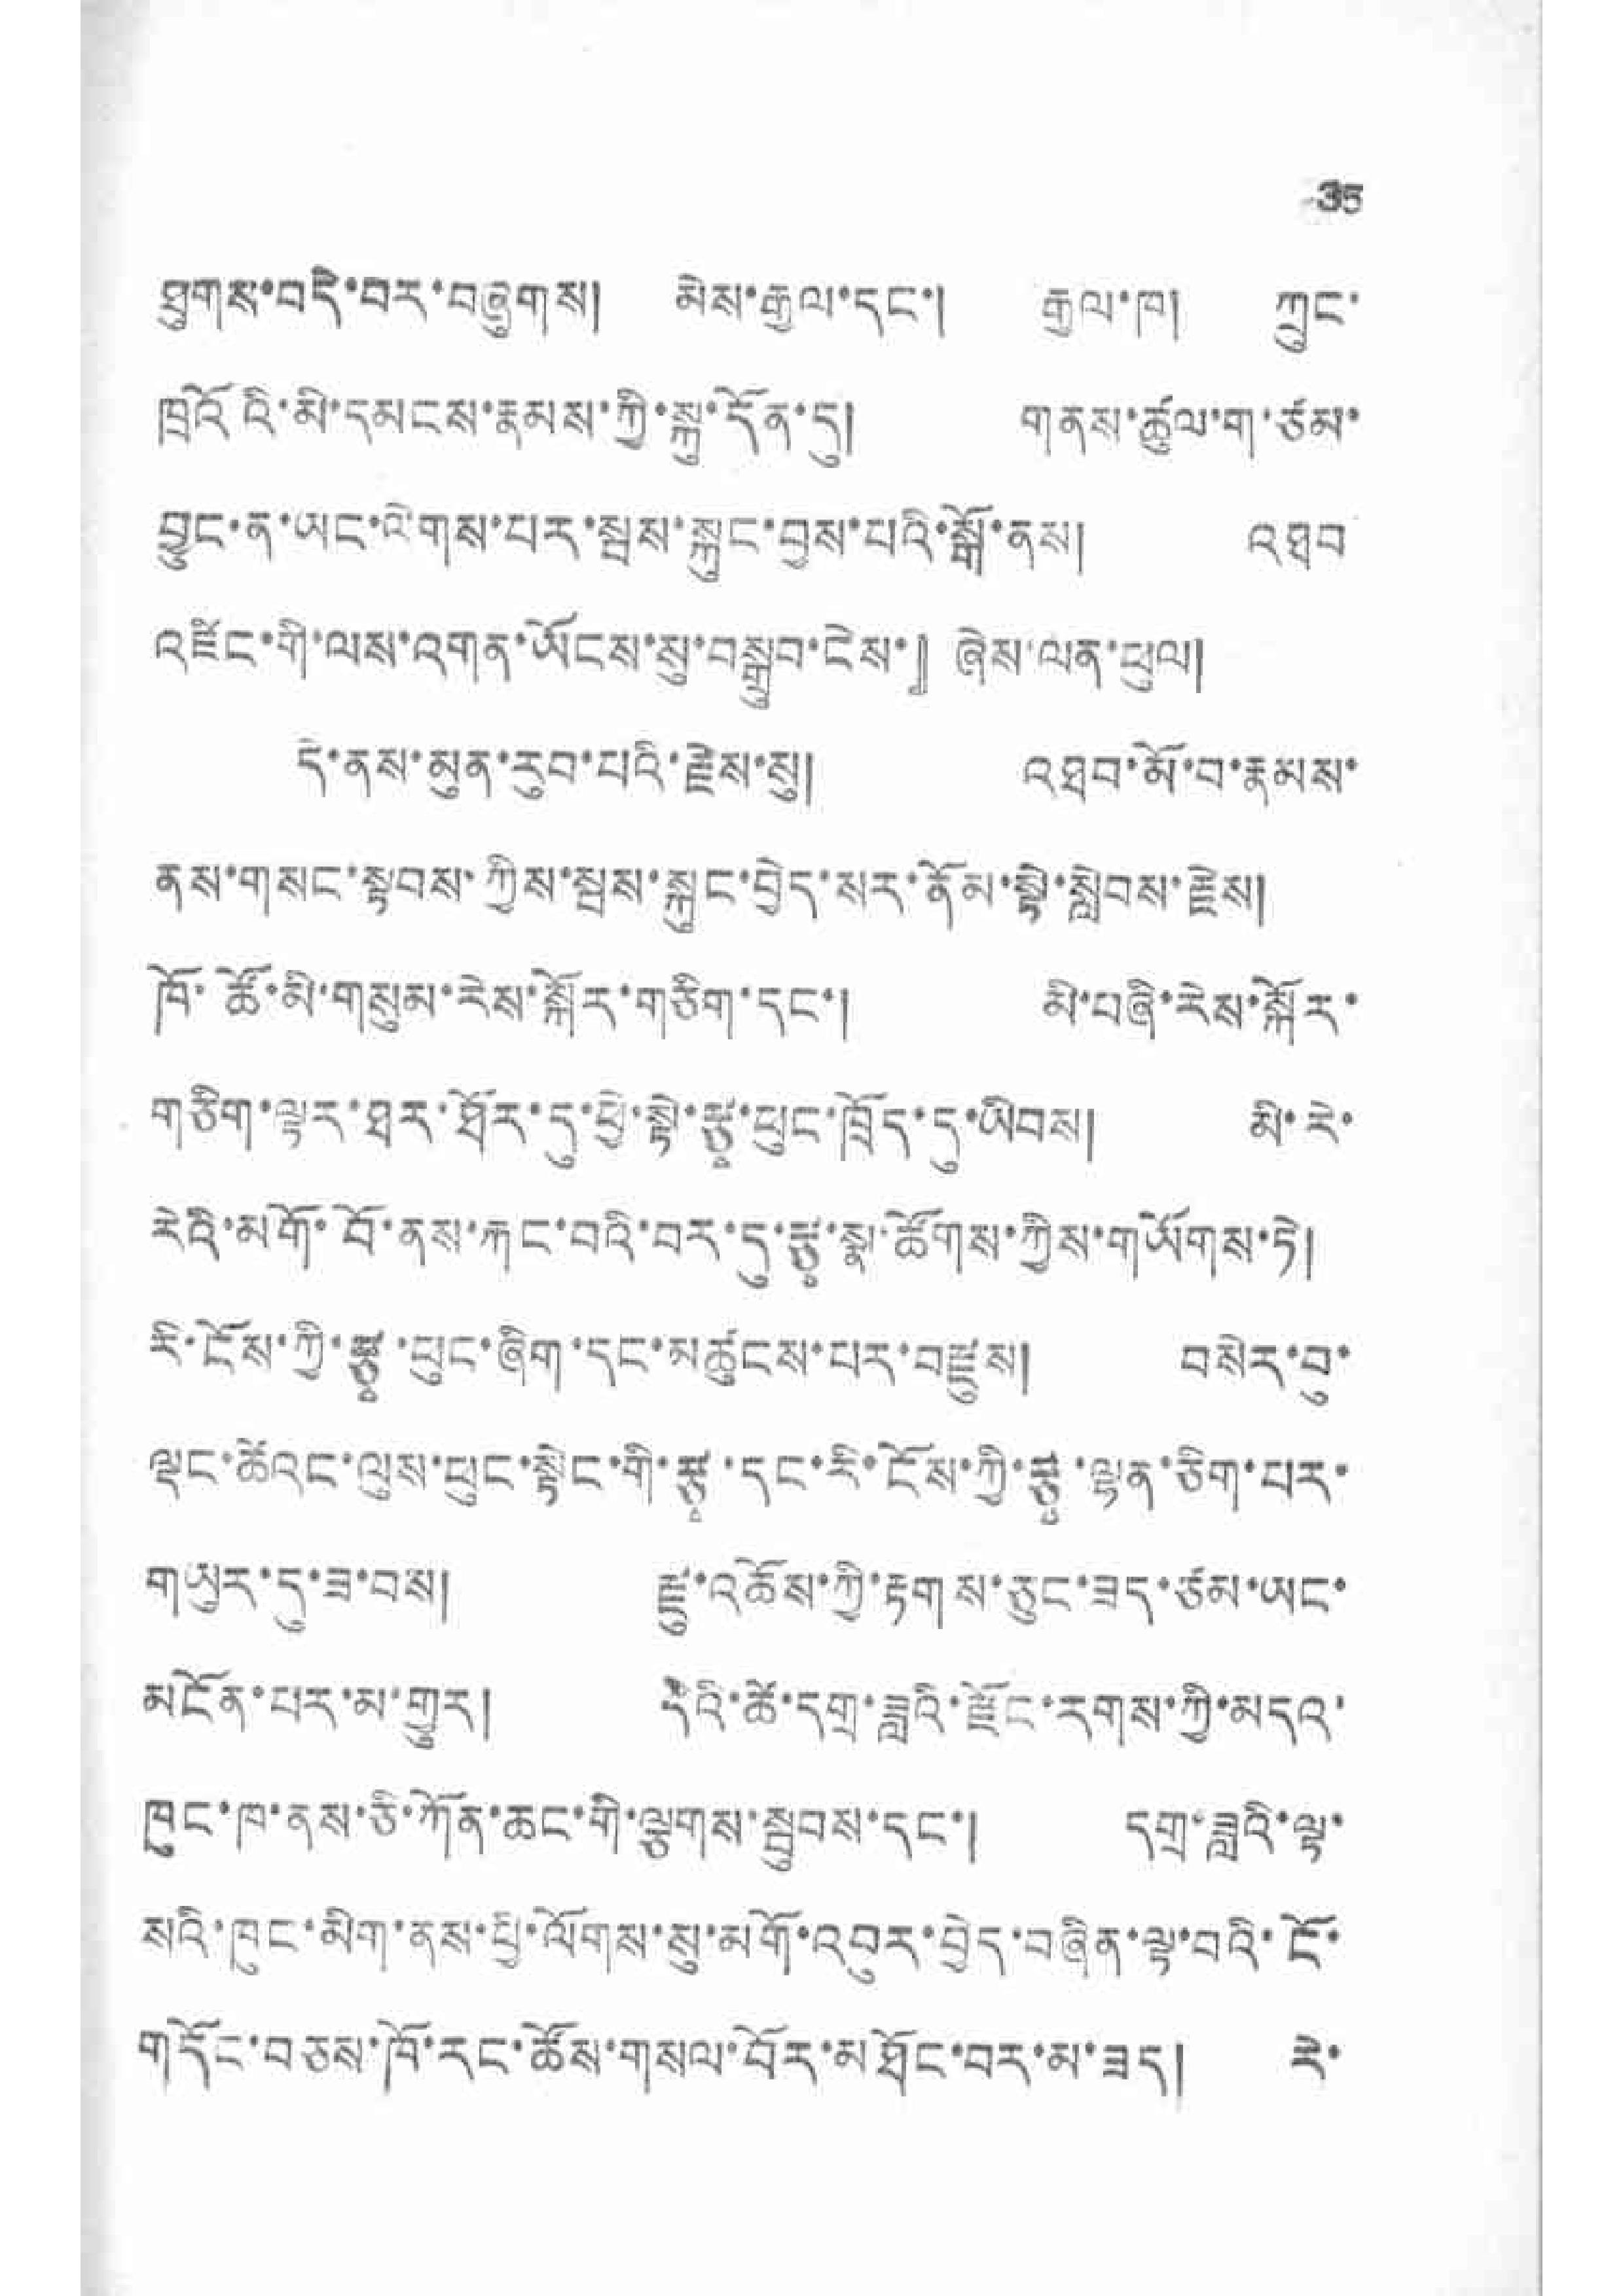35
ཐུགས་བདེ་བར་བཞུགས། མེས་རྒྱལ་དང་། རྒྱལ་ཁ། ཀྲུང་
ཁྲའོའི་མི་དམངས་རྣམས་ཀྱི་སྐུ་དོན་དུ། གནས་ཚུལ་ག་ཙམ་
བྱུང་ན་ཡང་ལེགས་པར་སྦས་སྐུང་བྱས་པའི་སྒོ་ནས། འཐབ
འཛིང་གི་ལས་འགན་ཡོངས་སུ་བསྒྲུབ་ངེས་』ཞེས་ལན་ཕུལ།
དེ་ནས་མུན་རུབ་པའི་རྗེས་པུ། འཐབ་མོ་བ་རྣམས་
ནས་གསང་སྟབས་ཀྱིས་སྦས་སྐུང་བྱེད་སར་ནོམ་སྟེ་སླེབས་རྗེས།
ཁོ་ཚོ་མི་གསུམ་རེས་སྐོར་གཅིག་དང་། མི་བཞི་རེས་སྐོར་
གཅིག་ལྷར་ཐར་ཐོར་དུ་ཕྱེ་སྟེ་རྩྭ་ཕུང་ཁྲོད་དུ་ཡིབས། མི་རེ་
རེའི་མགོ་བོ་ནས་རྐང་བའི་བར་དུ་རྩྭ་སྣ་ཚོགས་ཀྱིས་གཡོགས་ཏེ།
རི་ངོས་ཀྱི་རྩྭ་ཕུང་ཞིག་དང་མཚུངས་པར་བརྫུས། བསེར་བུ་
ལྡང་ཚེའང་ལུས་ཕུང་སྟེང་གི་རྩྭ་དང་རི་ངོས་ཀྱི་རྩྭ་ལྷན་ཅིག་པར་
གཡུར་དུ་ཟ་བས། རྫུ་འཆོས་ཀྱི་རྟགས་ཅུང་ཟད་ཙམ་ཡང་
མངོན་པར་མ་གྱུར། དེའི་ཚེ་དགྲ་ཟླའི་རྫོར་རགས་ཀྱི་མདའ་
ཁུང་ཁ་ནས་ཅི་ཀོན་ཆང་གི་ལྕགས་སྦུབས་དང་། དགྲ་ཟླའི་ལྟ་
སའི་ཁུང་མིག་ནས་ཕྱི་ལོགས་སུ་མགོ་འབུར་བྱེད་བཞིན་སྟ་བའི་ངོ་
གདོང་བཅས་ཁོ་རང་ཚོས་གསལ་བོར་མཐོང་བར་མ་ཟད། རེ་
